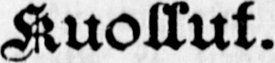Kuollut.
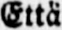Että
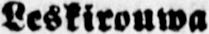Leskirouwa
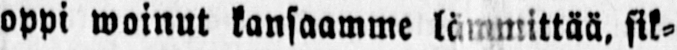oppi woinut kansaamme lämmittää. sik-
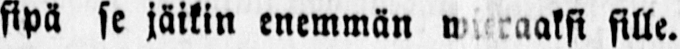sipä se jäikin enemmän wieraaksi sille.
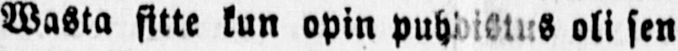Wasta sitte kun opin puhdistus oli sen
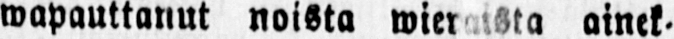wapauttanut noista wieraista ainek-
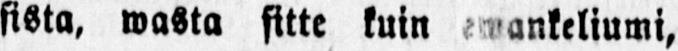fista, wasta sitte kuin ewankeliumi,
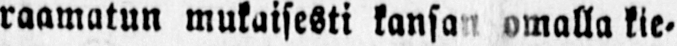raamatun mukaisesti kansan omalla kie-
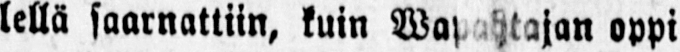lellä saarnattiin, kuin Wapahtajan oppi
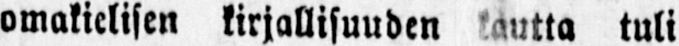omakielisen kirjallisuuden kautta tuli
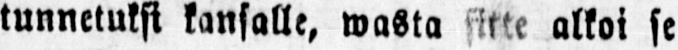tunnetuksi kansalle, wasta sitte alkoi se
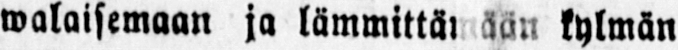walaisemaan ja lämmittämään kylmän
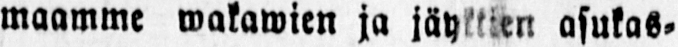maamme wakawien ja jäykkien asukas-
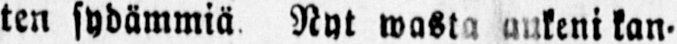ten sydämmiä Nyt wasta aukeni kan-
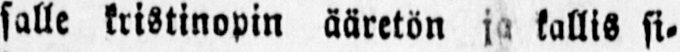salle kristinopin ääretön ja kallis si-
